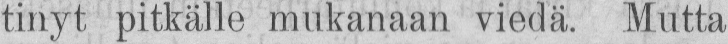tinyt pitkälle mukanaan viedä. Mutta
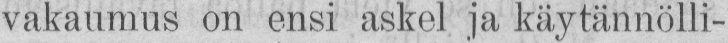vakaumus on ensi askel ja käytännölli-
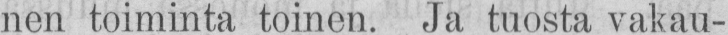nen toiminta toinen. Ja tuosta vakau-
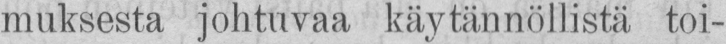muksesta johtuvaa käytännöllistä toi-
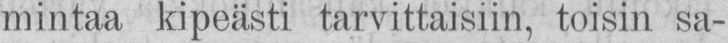mintaa kipeästi tarvittaisiin, toisin sa-
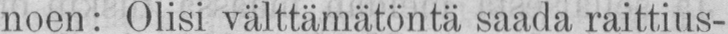noen: Olisi välttämätöntä saada raittius-
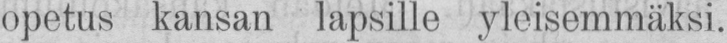opetus kansan lapsille yleisemmäksi.
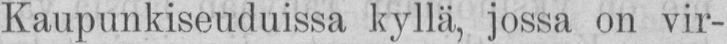Kaupunkiseuduissa kyllä, jossa on vir-
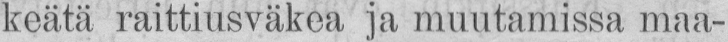keätä raittiusväkea ja muutamissa maa-
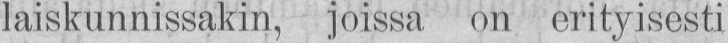laiskunnissakin, joissa on erityisesti
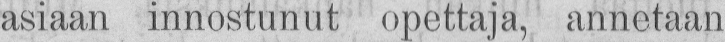asiaan innostunut opettaja, annetaan
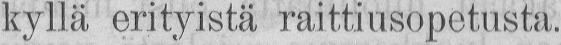kyllä erityistä raittiusopetusta.
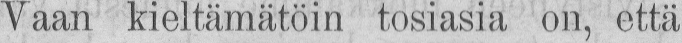Vaan kieltämätöin tosiasia on, että
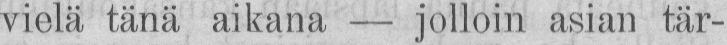vielä tänä aikana — jolloin asian tär-
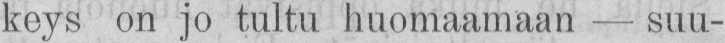keys on jo tultu huomaamaan — suu-
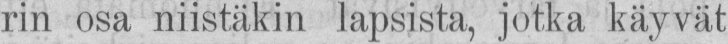rin osa niistäkin lapsista, jotka käyvät
